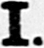I.
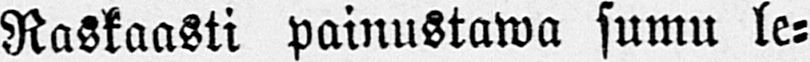Raskaasti painustawa sumu le-
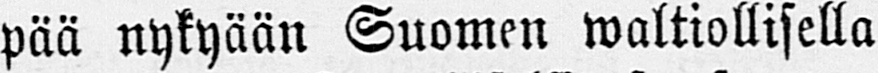pää nykyään Suomen waltiollisella
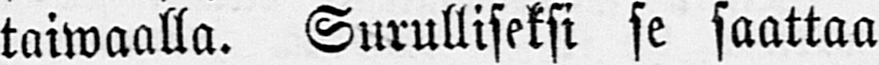taiwaalla. Surulliseksi se saattaa
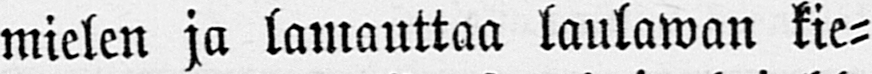mielen ja lamauttaa laulawan kie-
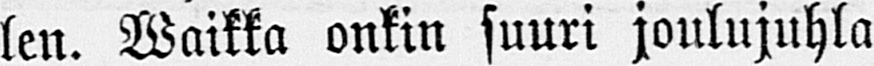len. Waikka onkin suuri joulujuhla
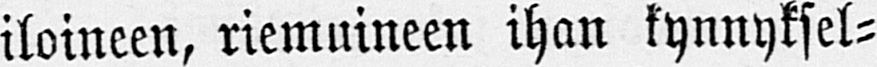iloineen, riemuineen ihan kynnyksel-
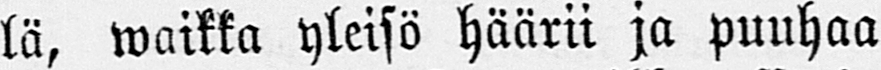lä, waikka yleisö häärii ja puuhaa
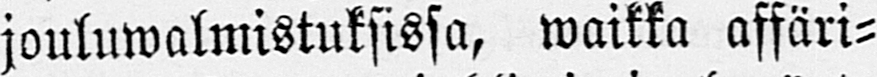jouluwalmistuksissa, waikka affäri-
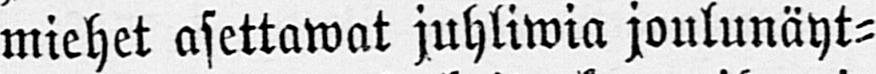miehet asettawat juhliwia joulunäyt-
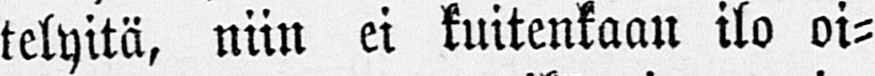telyitä, niin ei kuitenkaan ilo oi-
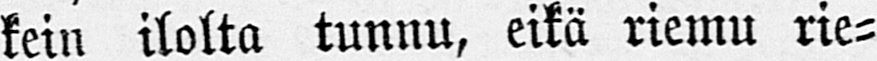kein ilolta tunnu, eikä riemu rie-
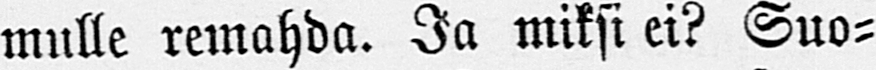mulle remahda. Ja miksi ei? Suo-
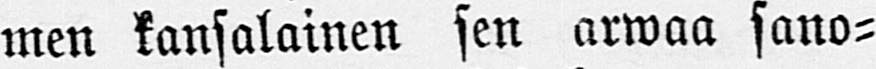men kansalainen sen arwaa sano-
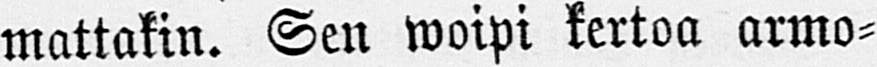mattakin. Sen woipi kertoa armo-
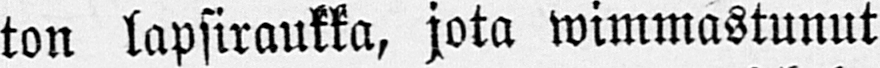ton lapsiraukka, jota wimmastunut
